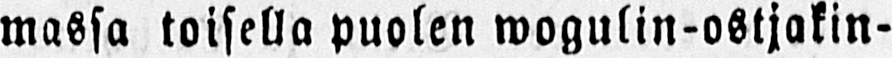massa toisella puolen wogulin-ostjakin-
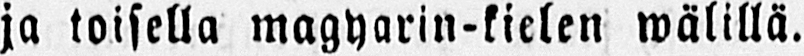ja toisella magyarin-kielen wälillä.
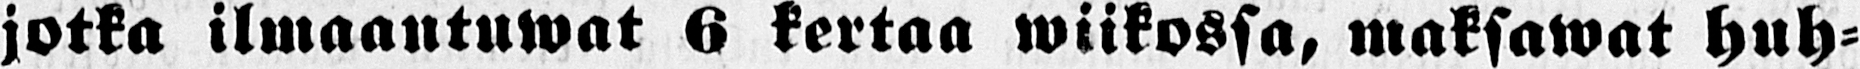jotka ilmaantuwat 6 kertaa wiikossa, maksawat huh-
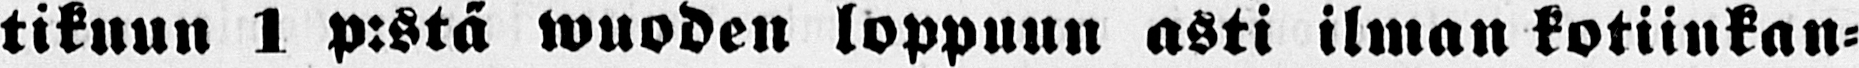tikuun 1 p:stä wuoden loppuun asti ilman kotiinkan-
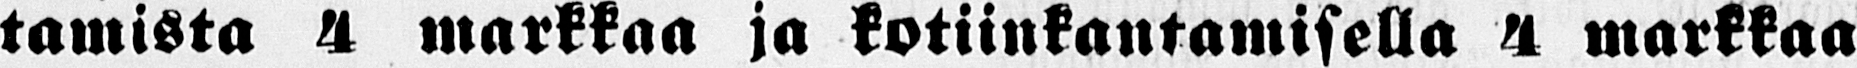tamista 4 markkaa ja kotiinkantamisella 4 markkaa
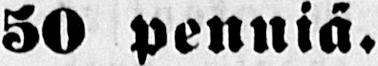50 penniä.
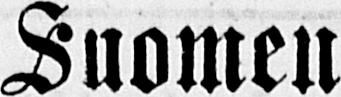Suomen
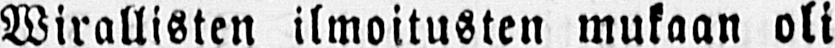Wirallisten ilmoitusten mukaan oli
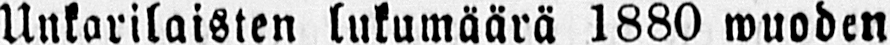Unkarilaisten lukumäärä 1880 wuoden
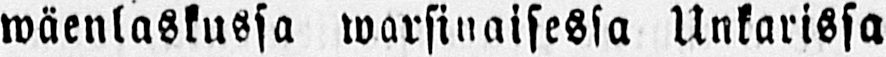mäenlaskussa warsinaisessa Unkarissa
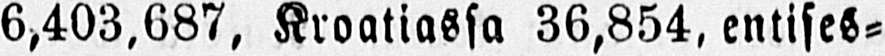6,403,687, Kroatiassa 36,854, entises-
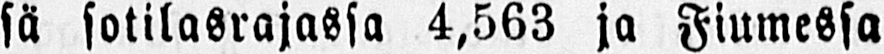sä sotilasrajassa 4,563 ja Fiumessa
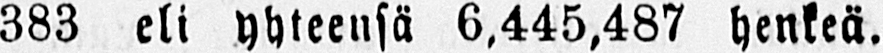383 eli yhteensä 6,445,487 henkeä.
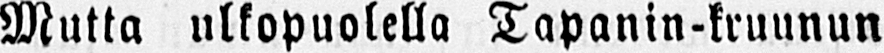Mutta ulkopuolella Tapanin-kruunun
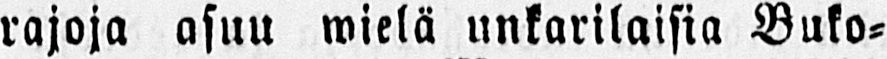rajoja asuu wielä unkarilaisia Buko-
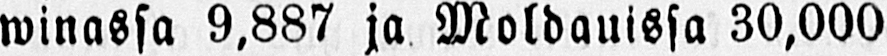winassa 9,887 ja Moldauissa 30,000
